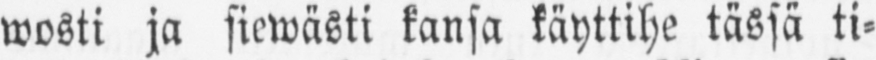wosti ja siewästi kansa käyttihe tässä ti-
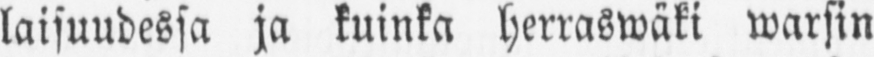laisuudessa ja kuinka herraswäki warsin
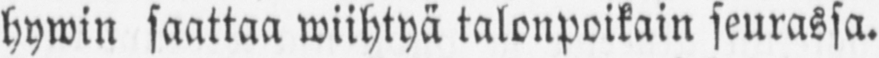hywin saattaa wiihtyä talonpoikain seurassa.
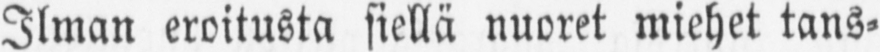Ilman eroitusta siellä nuoret miehet tans-
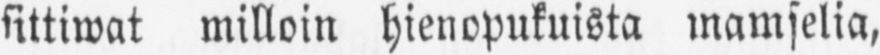sittiwat milloin hienopukuista mamselia,
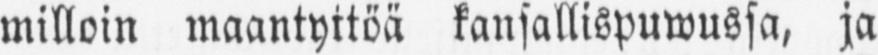milloin maantyttöä kansallispuwussa, ja
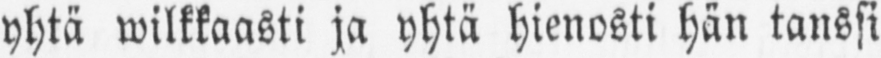yhtä wilkkaasti ja yhtä hienosti hän tanssi
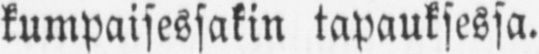kumpaisessakin tapauksessa.
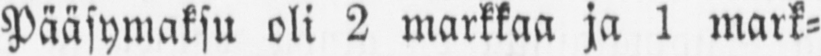Pääsymaksu oli 2 markkaa ja 1 mark-
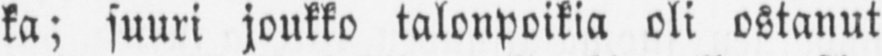ka; suuri joukko talonpoikia oli ostanut
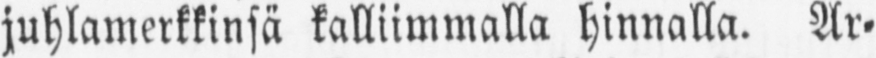juhlamerkkinsä kalliimmalla hinnalla. Ar-
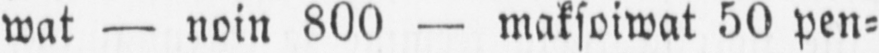wat — noin 800 — maksoiwat 50 pen-
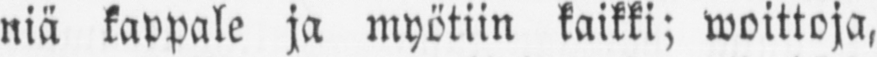niä kappale ja myötiin kaikki; woittoja,
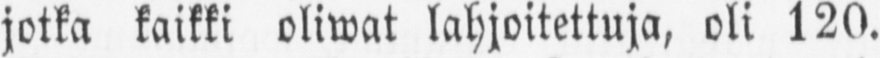jotka kaikki oliwat lahjoitettuja, oli 120.
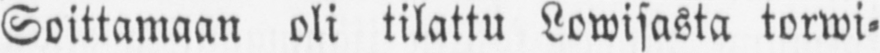Soittamaan oli tilattu Lowisasta torwi-
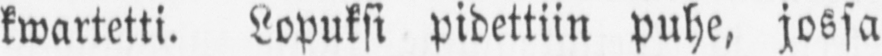kwartetti. Lopuksi pidettiin puhe, jossa
